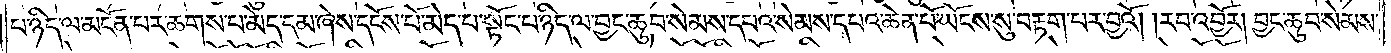པ་ཉིད་ལ་མངོན་པར་ཆགས་པ་མེད་དམ་ཞེས་དངོས་པོ་མེད་པ་སྟོང་པ་ཉིད་ལ་བྱང་ཆུབ་སེམས་དཔའ་སེམས་དཔའ་ཆེན་པོ་ཡོངས་སུ་བརྟག་པར་བྱའོ། །རབ་འབྱོར། བྱང་ཆུབ་སེམས་
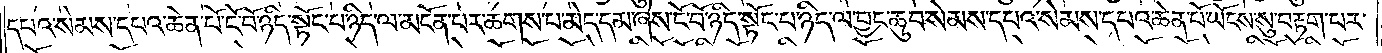དཔའ་སེམས་དཔའ་ཆེན་པོ་ངོ་བོ་ཉིད་སྟོང་པ་ཉིད་ལ་མངོན་པར་ཆགས་པ་མེད་དམ་ཞེས་ངོ་བོ་ཉིད་སྟོང་པ་ཉིད་ལ་བྱང་ཆུབ་སེམས་དཔའ་སེམས་དཔའ་ཆེན་པོ་ཡོངས་སུ་བརྟག་པར་
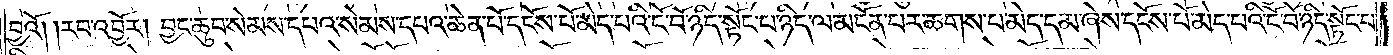བྱའོ། །རབ་འབྱོར། བྱང་ཆུབ་སེམས་དཔའ་སེམས་དཔའ་ཆེན་པོ་དངོས་པོ་མེད་པའི་ངོ་བོ་ཉིད་སྟོང་པ་ཉིད་ལ་མངོན་པར་ཆགས་པ་མེད་དམ་ཞེས་དངོས་པོ་མེད་པའི་ངོ་བོ་ཉིད་སྟོང་པ་
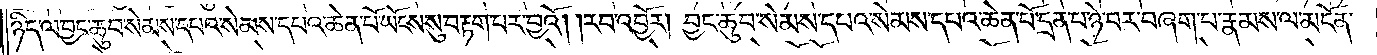ཉིད་ལ་བྱང་ཆུབ་སེམས་དཔའ་སེམས་དཔའ་ཆེན་པོ་ཡོངས་སུ་བརྟག་པར་བྱའོ། །རབ་འབྱོར། བྱང་ཆུབ་སེམས་དཔའ་སེམས་དཔའ་ཆེན་པོ་དྲན་པ་ཉེ་བར་བཞག་པ་རྣམས་ལ་མངོན་
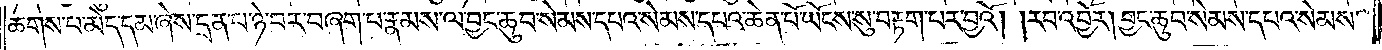ཆགས་པ་མེད་དམ་ཞེས་དྲན་པ་ཉེ་བར་བཞག་པ་རྣམས་ལ་བྱང་ཆུབ་སེམས་དཔའ་སེམས་དཔའ་ཆེན་པོ་ཡོངས་སུ་བརྟག་པར་བྱའོ། །རབ་འབྱོར། བྱང་ཆུབ་སེམས་དཔའ་སེམས་
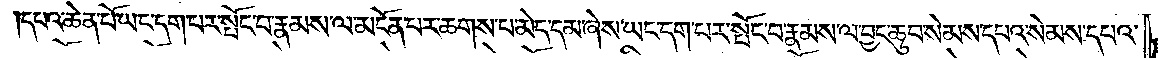དཔའ་ཆེན་པོ་ཡང་དག་པར་སྤོང་བ་རྣམས་ལ་མངོན་པར་ཆགས་པ་མེད་དམ་ཞེས་ཡང་དག་པར་སྤོང་བ་རྣམས་ལ་བྱང་ཆུབ་སེམས་དཔའ་སེམས་དཔའ་
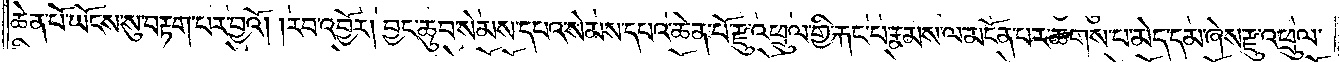ཆེན་པོ་ཡོངས་སུ་བརྟག་པར་བྱའོ། །རབ་འབྱོར། བྱང་ཆུབ་སེམས་དཔའ་སེམས་དཔའ་ཆེན་པོ་རྫུ་འཕྲུལ་གྱི་རྐང་པ་རྣམས་ལ་མངོན་པར་ཆགས་པ་མེད་དམ་ཞེས་རྫུ་འཕྲུལ་
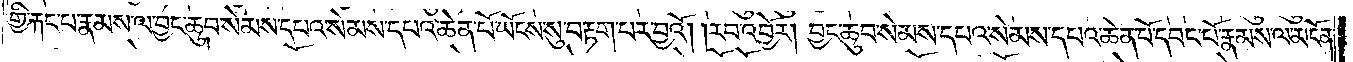གྱི་རྐང་པ་རྣམས་ལ་བྱང་ཆུབ་སེམས་དཔའ་སེམས་དཔའ་ཆེན་པོ་ཡོངས་སུ་བརྟག་པར་བྱའོ། །རབ་འབྱོར། བྱང་ཆུབ་སེམས་དཔའ་སེམས་དཔའ་ཆེན་པོ་དབང་པོ་རྣམས་ལ་མངོན་
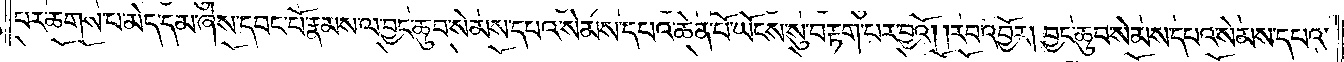པར་ཆགས་པ་མེད་དམ་ཞེས་དབང་པོ་རྣམས་ལ་བྱང་ཆུབ་སེམས་དཔའ་སེམས་དཔའ་ཆེན་པོ་ཡོངས་སུ་བརྟག་པར་བྱའོ། །རབ་འབྱོར། བྱང་ཆུབ་སེམས་དཔའ་སེམས་དཔའ་
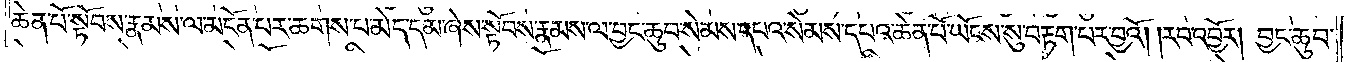ཆེན་པོ་སྟོབས་རྣམས་ལ་མངོན་པར་ཆགས་པ་མེད་དམ་ཞེས་སྟོབས་རྣམས་ལ་བྱང་ཆུབ་སེམས་དཔའ་སེམས་དཔའ་ཆེན་པོ་ཡོངས་སུ་བརྟག་པར་བྱའོ། །རབ་འབྱོར། བྱང་ཆུབ་
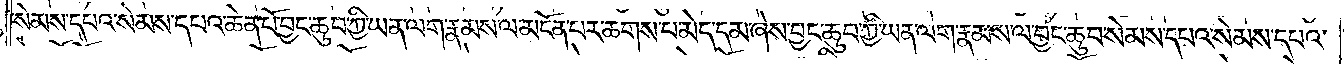སེམས་དཔའ་སེམས་དཔའ་ཆེན་པོ་བྱང་ཆུབ་ཀྱི་ཡན་ལག་རྣམས་ལ་མངོན་པར་ཆགས་པ་མེད་དམ་ཞེས་བྱང་ཆུབ་ཀྱི་ཡན་ལག་རྣམས་ལ་བྱང་ཆུབ་སེམས་དཔའ་སེམས་དཔའ་
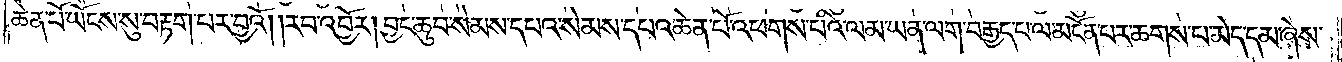ཆེན་པོ་ཡོངས་སུ་བརྟག་པར་བྱའོ། །རབ་འབྱོར། བྱང་ཆུབ་སེམས་དཔའ་སེམས་དཔའ་ཆེན་པོ་འཕགས་པའི་ལམ་ཡན་ལག་བརྒྱད་པ་ལ་མངོན་པར་ཆགས་པ་མེད་དམ་ཞེས་
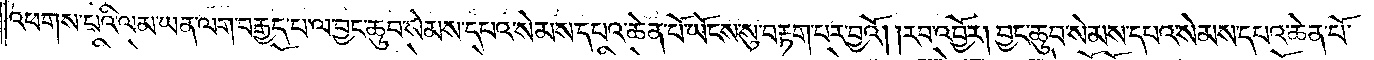འཕགས་པའི་ལམ་ཡན་ལག་བརྒྱད་པ་ལ་བྱང་ཆུབ་སེམས་དཔའ་སེམས་དཔའ་ཆེན་པོ་ཡོངས་སུ་བརྟག་པར་བྱའོ། །རབ་འབྱོར། བྱང་ཆུབ་སེམས་དཔའ་སེམས་དཔའ་ཆེན་པོ་
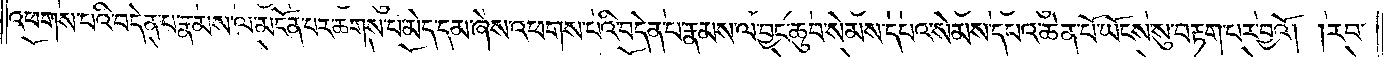འཕགས་པའི་བདེན་པ་རྣམས་ལ་མངོན་པར་ཆགས་པ་མེད་དམ་ཞེས་འཕགས་པའི་བདེན་པ་རྣམས་ལ་བྱང་ཆུབ་སེམས་དཔའ་སེམས་དཔའ་ཆེན་པོ་ཡོངས་སུ་བརྟག་པར་བྱའོ། །རབ་
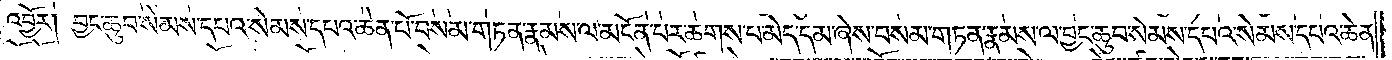འབྱོར། བྱང་ཆུབ་སེམས་དཔའ་སེམས་དཔའ་ཆེན་པོ་བསམ་གཏན་རྣམས་ལ་མངོན་པར་ཆགས་པ་མེད་དམ་ཞེས་བསམ་གཏན་རྣམས་ལ་བྱང་ཆུབ་སེམས་དཔའ་སེམས་དཔའ་ཆེན་
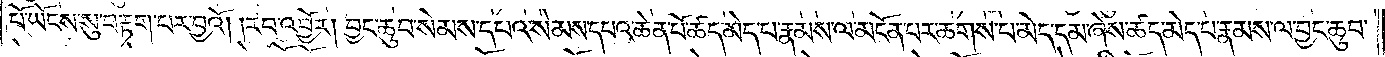པོ་ཡོངས་སུ་བརྟག་པར་བྱའོ། །རབ་འབྱོར། བྱང་ཆུབ་སེམས་དཔའ་སེམས་དཔའ་ཆེན་པོ་ཚད་མེད་པ་རྣམས་ལ་མངོན་པར་ཆགས་པ་མེད་དམ་ཞེས་ཚད་མེད་པ་རྣམས་ལ་བྱང་ཆུབ་
